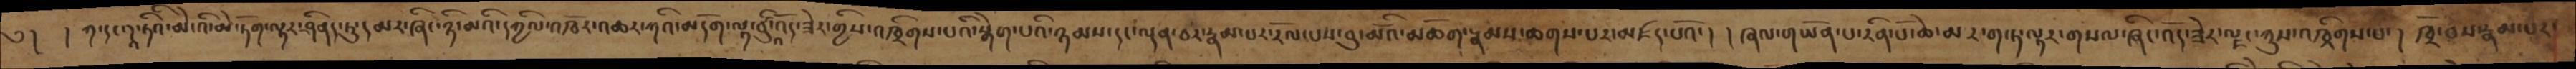༄། །ཀ་ད་ནཱ་ཏིའི་མེ་འི་མེ་ཏོག་ལྟར་ཤིནད་ཏུ་དམར་ཞིང་ཉི་མའི་འཀྱིལ་འཁོར་འཆར་ཀའི་མདོག་ལྟ་བུའི་འོད་ཟེར་གྱིས་འཁྲིགས་པའི་སྒེག་པའི་ཉམས་དང་ལྡན་བར་རྣམ་པར་རོལ་པས་བུ་མོའི་མཆོག་རྣམས་ཆགས་པར་མཛད་པའོ་། །ཞལ་གཡོན་པ་རིན་པོ་ཆེ་མར་ག་ཏ་ལྟར་གསལ་ཞིང་འོད་ཟེར་ལྗང་ཀུས་འཁྲིགས་པ་། ཁྲོ་བས་རྣམ་པར་
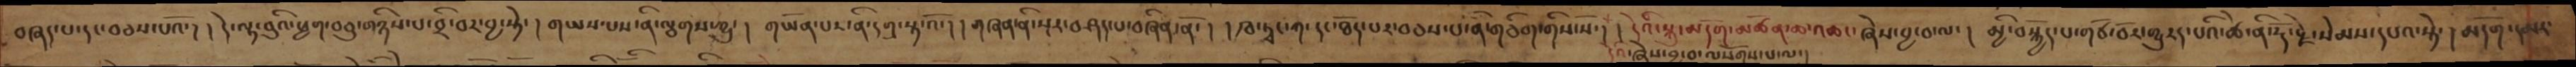བཞད་པ་དང་བཅས་པའོ། །དེ་ལྟ་བུའི་ཕྱག་བཅུ་གཉིས་པ་བྲི་བར་བྱ་སྟེ་ །གཡས་པས་ནི་ལྕགས་ཀྱུ་ ། གཡོན་པས་ནི་དགྲ་སྟ་འོ། །གཞན་ནི་སྔར་བཤད་པ་བཞིན་ནོ། །ཁ་ཏྭང་ཀ་དང་ཐོད་པར་བཅས་པ་ནི་གཅིག་གིས་སོ་། །དེའི་སྐུ་མདོག་མཚོན་ཆ་འཆང་ཞེས་བྱ་བ་ལ་།  མྱི་བསྐྱོད་པ་གཙོ་བོར་གྱུརད་པའི་ཚེ་ནི་རྡོ་རྗེ་སེམས་དཔའ་སྟེ། མདོག་དམར་
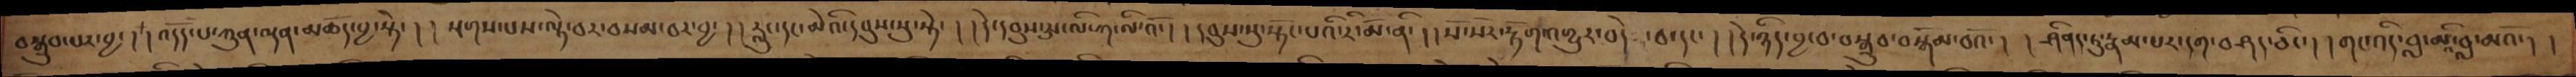བསྒྲུབ་པར་བྱ་། །འདོད་པ་ཀུན་ལྡན་མཆོད་བྱ་སྟེ་། །སྔགས་པས་ལྡེ་བར་བསམ་བར་བྱ་། །རླུང་དང་མེའི་དབུས་སུ་སྟེ་། །དེ་དབུས་སུ་ལི་ཀ་ལི་འོ་། །དབུས་སུ་སྟོང་པའི་རི་མོ་ནི་། །སོ་སོར་རྟོག་འགྱུར་བདེ་བ་དང་། །དེ་ཉིད་བྱ་བ་བསྒྲུབ་བསྒོམ་བའོ་། །ཤིནད་ཏུ་རྣམ་པར་དག་བཤད་ཅིང་། །གང་འདི་བླ་མའི་བླ་མའོ་། །
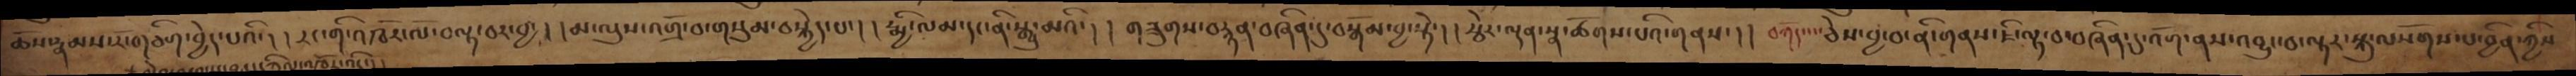ཆོས་རྣམས་རོ་གཅིག་བྱེད་པའི་། །རང་གི་འཁོར་ལོ་བལྟ་བར་བྱ་། །མ་ལུས་འགྲོ་བ་གསུམ་བསྐྱེད་པ་། །རྨྱི་ལམ་དང་ནི་སྒྱུ་མའི་། །གཟུགས་བརྙན་བཞིན་དུ་བསྒོམ་བྱ་སྟེ་། །རྩེར་ལྡན་སྣ་ཚོགས་པའི་གནས་། །བཀོད་པ་ཅེས་བྱ་བ་ནི་གནས་ཇི་ལྟ་བ་བཞིན་དུ་འོག་ནས་འབྱུང་བ་ལྟར་སྐུ་ལསོགས་པ་བྱིན་ཀྱིས
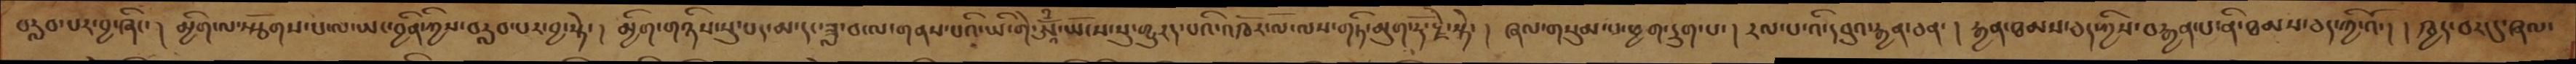བརླབ་པར་བྱ་ཞིང་ ། མྱིག་ལ་སྩོགས་པ་ལ་ཡང་བྱིན་ཀྱིས་བརླབ་པར་བྱ་སྟེ་ ། མྱིག་གཉིས་སུ་པད་མ་དང་ཟླ་བ་ལ་གནས་པའི་ཡི་གེ་ཨཱོྃ་ཡོངས་སུ་གྱུརད་པའི་འཁོར་ལོ་ལས་གཏི་མུག་རྡོ་རྗེ་སྟེ་ ། ཞལ་གསུམ་པ་ཕྱག་དྲུག་པ་ ། རལ་པ་འི་དབུའ་རྒྱན་ཅན་ ། རྒྱན་ཐམས་ཅད་ཀྱིས་བརྒྱན་པ་ནི་ཐམས་ཅད་ཀྱི་འོ་། །ཁྱད་བར་དུ་ཞལ་
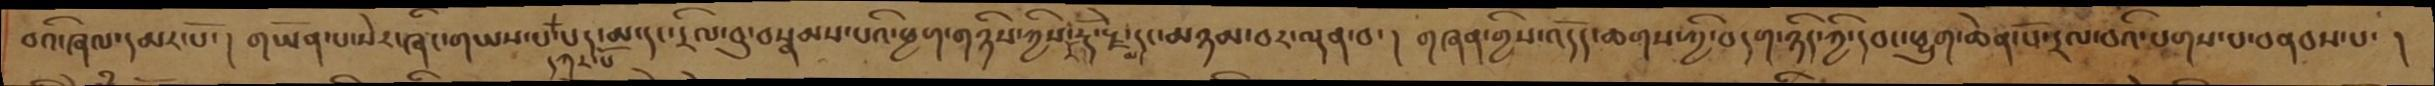བའི་ཞལ་དམར་པོ་ ། གཡོན་པ་སེར་ཞིང་གཡས་པ་དཀར་པོ་པད་མ་དང་དྲིལ་བུ་བསྣམས་པའི་ཕྱག་གཉིས་ཀྱིས་རོ་རྡོ་རྗེ་མ་དང་མཉམ་བར་ལྡན་བ་ ། གཞན་གྱིས་འདོད་ཆགས་ཀྱི་བདག་ཉིད་ཀྱི་དབང་ཕྱུག་ཆེན་པོ་དྲལ་བའི་པགས་པ་བནབས་པ་ །
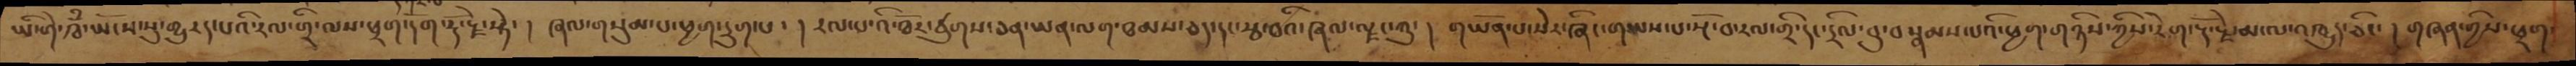ཡི་གེ་ཁྃ་ཡོངས་སུ་གྱུརད་པའི་རལ་གྲི་ལས་ཕྲག་དོག་རྡོ་རྗེ་སྟེ་ ། ཞལ་གསུམ་པ་ཕྱག་དྲུག་པ་ ། རལ་པ་འི་ཐོར་ཙུགས་ཅན་ཇཡན་ལག་ཐམས་ཅད་དང་རྩ་བའི་ཞལ་ལྗང་ཀུ་ ། གཡོན་པ་སེར་ཞིང་གཡས་པ་སྔོ་བ་རལ་གྲི་དང་དྲིལ་བུ་བསྣམས་པའི་ཕྱག་གཉིས་ཀྱིས་རེག་རྡོ་རྗེ་མ་ལ་འཁྱུད་ཅིང་ ། གཞན་གྱིས་ཕྲག་
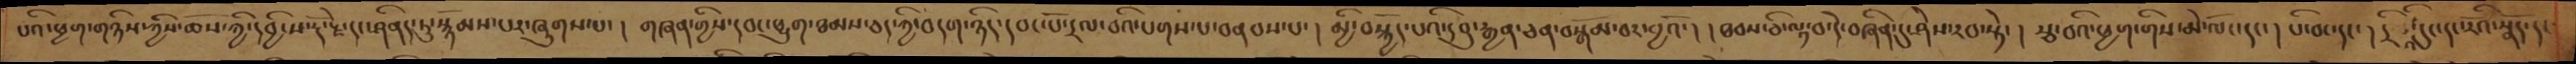པའི་ཕྱག་གཉིས་ཀྱིས་ཆོས་ཀྱི་དབྱིངས་རྡོ་རྗེ་དང་ཤིནད་ཏུ་སྙོམས་པར་ཞུགས་པ་། གཞན་གྱིས་དབང་ཕྱུག་ཐམས་ཅད་ཀྱི་བདག་ཉིད་དབང་པོ་དྲལ་བའི་པགས་པ་བནབས་པ་ ། མྱི་བསྐྱོད་པའི་དབུ་རྒྱན་ཅན་བསྒོམ་བར་བྱའོ་། །ཐབས་ཅི་ལྟ་བ་དེ་བཞིན་དུ་ཤེས་རབ་སྟེ་ ། རྩ་བའི་ཕྱག་གིས་མེ་ལོང་དང་ ། པི་བང་དང་ ། དྲིལ་དུང་དང་རོའི་སྣོད་དང
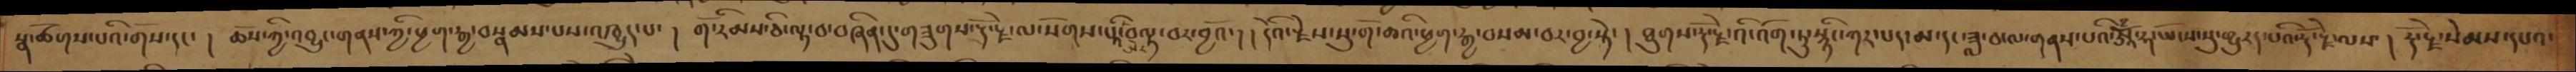སྣ་ཚོགས་པའི་གོས་དང་ ། ཆོས་ཀྱི་འབྱུང་གནས་ཀྱི་ཕྱག་རྒྱ་བསྣམས་པས་འཁྱུད་པ་ ། གོ་རིམས་ཅི་ལྟ་བ་བཞིན་དུ་གཟུགས་རྡོ་རྗེ་ལ་སོགས་པའི་བལྟ་བར་བྱའོ་། །དེའི་རྗེས་སུ་གོ་ཆའི་ཕྱག་རྒྱ་བསམ་བར་བྱ་སྟེ་ ། ཐུགས་རྡོ་རྗེ་འི་འོག་ཏུ་སྙིང་ཀར་པད་མ་དང་ཟླ་བ་ལ་གནས་པའི་ཨཱོྃ་ཧ་ཡོངས་སུ་གྱུརད་པའི་རྡོ་རྗེ་ལས་ ། རྡོ་རྗེ་སེམས་དཔའ་
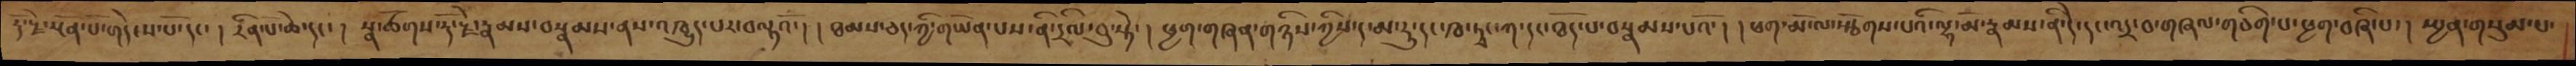རྡོ་རྗེ་སྔོན་པོ་གདེངས་པོ་དང་ ། རིན་པོ་ཆེ་དང་ ། སྣ་ཚོགས་རྡོ་རྗེ་རྣམས་བསྣམས་ནས་འཁྱུད་པར་བལྟའོ་ ། །ཐམས་ཅད་ཀྱི་གཡོན་པས་ནི་དྲིལ་བུ་སྟེ་ ། ཕྱག་གཞན་གཉིས་ཀྱིས་ད་མ་རུ་དང་ཁ་ཏྭང་ཀ་དང་ཐོད་པ་བསྣམས་པའོ་། །ཕག་མོ་ལ་སྩོགས་པའི་ལྷ་མོ་རྣམས་ནི་དེ་དང་འདྲ་བ་གཞལ་གཅིག་པ་ཕྱག་བཞི་པ་ ། སྤྱན་གསུམ་པ་
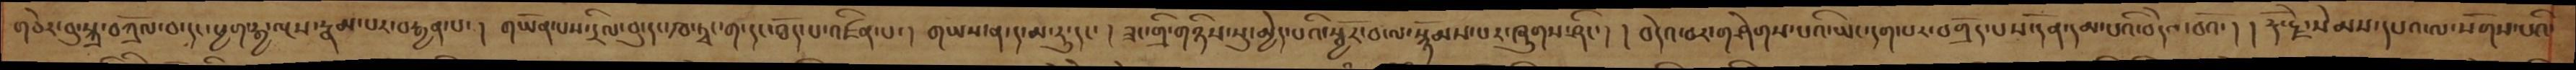གཅེར་བུ་སྐྲ་དཀྲོལ་བ་དང་ཕྱག་རྒྱ་ལྔས་རྣམ་པར་བརྒྱན་པ་ ། གཡོན་པས་དྲིལ་བུ་དང་ཁ་ཏྭང་ག་དང་ཐོད་པ་འཛིན་པ་ ། གཡས་ན་ད་མ་རུ་དང་ ། ཟང་གྲི་གཉིས་སུ་མྱེད་པའི་སྦྱོར་བ་ལ་སྙོམས་པར་ཞུགས་ཤིང་། །བདེའ་བར་གཤེགས་པའི་ཡང་དག་པར་བགྲོད་པས་དོན་དམ་པའི་བདེའ་བའོ་། །རྡོ་རྗེ་སེམས་དཔའ་ལ་སོགས་པའི་
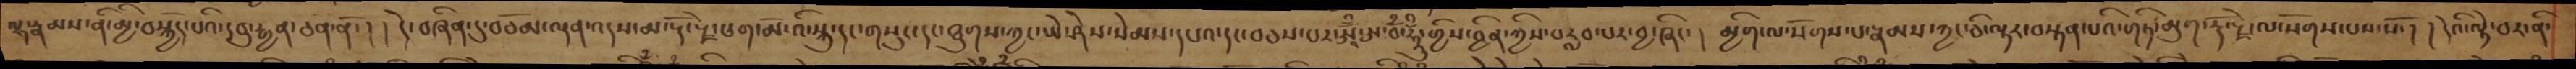ལྷ་རྣམས་ནི་མྱི་བསྐྱོད་པའི་དབུ་རྒྱན་ཅན་ནོ་། །དེ་བཞིན་དུ་བཅོམ་ལྡན་འདས་མ་རྡོ་རྗེ་ཕག་མོ་འི་སྐུ་དང་གསུང་དང་ཐུགས་ཀྱང་ཡེ་ཤེས་སེམས་དཔའ་དང་བཅས་པར་ཨཱོྃ་ཨ་བྃ་ཧཱུྃ་གྱིས་བྱིན་ཀྱིས་བརླབ་པར་བྱ་ཞིང་ ། མྱིག་ལ་སོགས་པ་རྣམས་ཀྱང་ཅི་ལྟར་བསྟན་པའི་གཏི་མུག་རྡོ་རྗེ་ལ་སོགས་པས་སོ་། །དེའི་ལྟེ་བར་ནི་
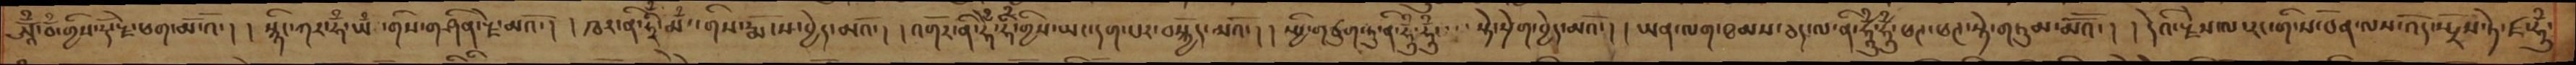ཨཱོྃ་བྃ་གྱིས་རྡོ་རྗེ་ཕག་མོ་འོ་། །སྙིང་ཀར་ཧྃ་ཡྃ་གིས་གཤིན་རྗེ་མའོ་། །ཁར་ནི་ཧྲི་མྃ་གིས་རྨོངས་བྱེད་མའོ་། །འགོར་ནི་ཧྃ་ཧི་གྱིས་ཡང་དག་པར་བསྐྱོད་མའོ་། །སྤྱི་གཙུག་ཏུ་ནི་ཧཱུྃ་ཧཱུྃ་་་སྟེ་སྲེག་བྱེད་མའོ་། །ཡན་ལག་ཐམས་ཅད་ལ་ནི་ཧཱུྃ་ཧཱུྃ་ཕཊ་ཕཊ་སྟེ་གཏུམ་མོའོ་། །དེའི་རྗེས་ལ་རང་གི་ས་བོན་ལས་འོད་སྤྲོས་ཏེ་ཛ་ཧཱུྃ་
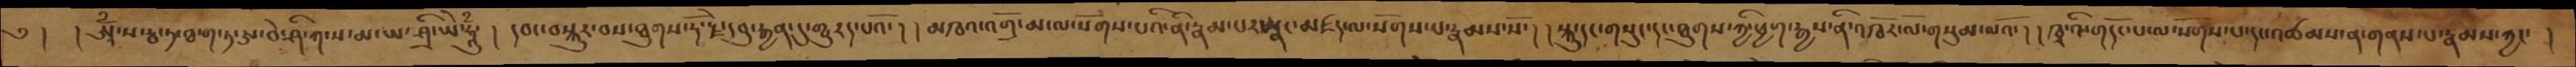༄། །ཨཱོྃ་ས་རྦ་ཏ་ཐ་ག་ཏ་ཨ་བེ་ཤི་ཀ་ས་མ་ཡ་ཤྲི་ཡེ་ཧཱུྃ་། དབང་བསྐུར་བས་ཐུགས་རྡོ་རྗེ་དབུ་རྒྱན་དུ་གྱུརད་པའོ་། །མཁའ་འགྲོ་མ་ལ་སོགས་པའི་ནི་རྣམས་པར་སྣང་མཛད་ལ་སོགས་པ་རྣམས་སོ་། །སྐུ་དང་གསུང་དང་ཐུགས་ཀྱི་ཕྱག་རྒྱས་ནི་འཁོར་ལོ་གསུམ་མའོ་། །ཁྭ་འི་གདོང་པ་ལ་སོགས་པ་དང་འཚམས་ན་གནས་པ་རྣམས་ཀྱང་།
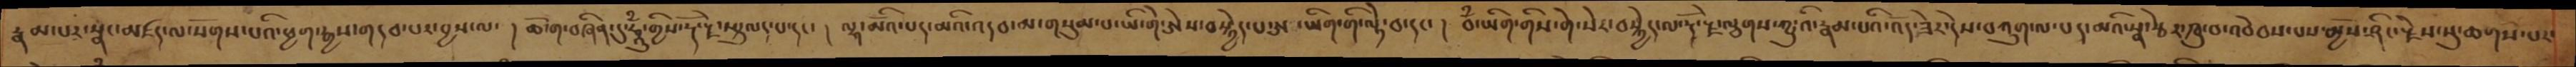རྣམ་པར་སྣང་མཛད་ལ་སོགས་པའི་ཕྱག་རྒྱས་གདབ་པར་བྱས་ལ་། ཆོ་ག་བཞིན་དུ་ཧཱུྃ་གྱིས་རྡོ་རྗེ་སྤྲུལད་པ་དང་། །ལྷ་མོའི་པད་མའི་འདབ་མ་གསུམ་པ་ཡི་གེ་ཨེས་བསྐྱེད་པ་ཨ་ཡིག་གི་ལྟེ་བ་དང་། བྃ་ཡིག་གིས་གེ་སེར་བསྐྱེད་ལ་རྡོ་རྗེ་ལྕགས་ཀྱུའི་རྣམ་པའི་འོད་ཟེར་དེས་བཀུག་ལ་པད་མའི་སྣ་རྩེར་ཁུ་བ་འབེབས་པས་མྱོས་ཤིང་རྗེས་སུ་ཆགས་པར་
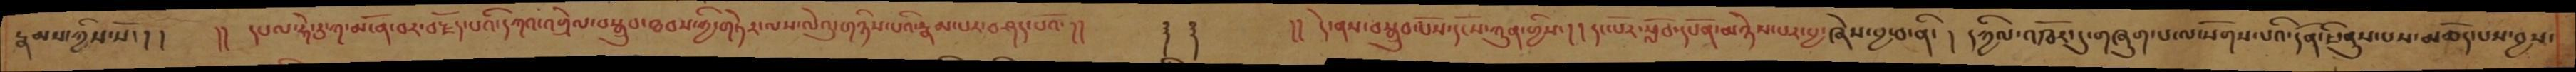རྣམས་ཀྱིས་སོ་།།   །།དཔལ་ཧེ་རུ་ཀ་མངོན་བར་བརྗོད་པའི་དཀའ་འགྲེལ་བསྒྲུབ་ཐབས་ཀྱི་གཏེར་ལས་ལེའུ་གཉིས་པའི་རྣམ་པར་བཤད་པའོ་།།   ༈ ༈   །།དེ་ནས་བསྒྲུབ་པོས་དངོས་ཀུན་གྱིས་། །དང་པོར་སློབ་དཔོན་མཉེས་པར་བྱ་ཞེས་བྱ་བ་ནི་། དཀྱིལ་འཁོར་དུ་གཞུག་པ་ལ་སོགས་པའི་དོན་ཇི་ནུས་པས་མཆོད་པས་བྱས་
